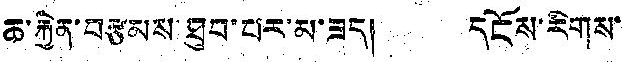ཆ་རྐྱེན་བརྩམས་ཐུབ་པར་མ་ཟད། དངོས་རིགས་
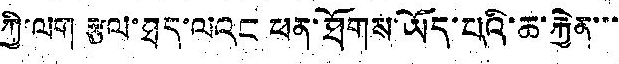ཀྱི་ལག རྩལ་ཐད་ལའང ཕན་ཐོགས་ཡོད་པའི་ཆ་རྐྱེན་་་
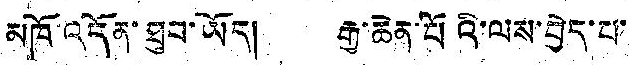མཁོ་འདོན་ཐུབ་ཡོད། རྒྱ་ཆེན་པོའི་ལས་བྱེད་པ་
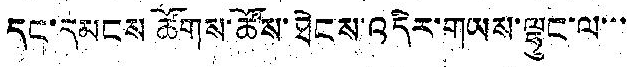དང་དམངས ཚོགས་ཚོས་ཐེངས་འདིར་གཡས་ལྷུང་ལ་་་
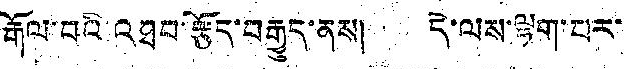རྒོལ་བའི འཐབ་རྩོད་བརྒྱུད་ནས། དེ་ལས་ལྷག་པར་
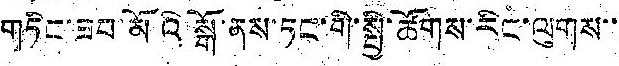གཏིང་ཟབ་མོའི སྒོ་ནས་ཏང་གི་སྤྱི་ཚོགས་རིང་ལུགས་་
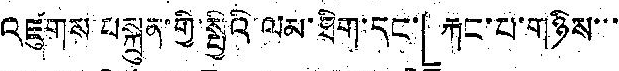འཛུགས བསྐྲུན་གྱི་སྤྱིའི་ལམ་ཐིག་དང་「རྐང་པ་གཉིས་་་
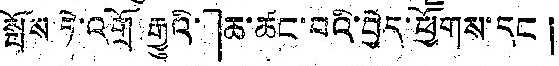སྤོས ཏེ་འགྲོ རྒྱུའི་」ཆ་ཚང་བའི་བྱེད་ཕྱགོས་དང །
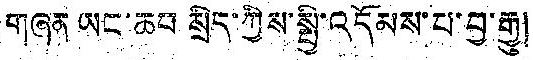གཞན ཡང་ཆབ སྲིད་ཀྱིས་སྤྱི་འདོམས་པ་བྱ་རྒྱུ།
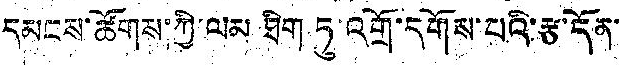དམངས་ཚོགས་ཀྱི་ལམ ཐིག ཏུ་འགྲོ་དགོས་པའི་རྩ་དོན་
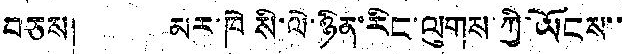བཅས། མར་ཁེ སི་ལེ་ཉིན་རིང་ལུགས་ཀྱི་ཡོངས་་
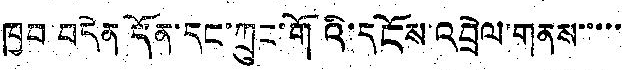ཁྱབ བདེན དང་ཀྲུང་གོའི་དངོས་འབྲེལ་གནས་་་་་
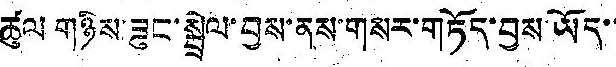ཚུལ གཉིས་ཟུང་སྦྲེལ་བྱས་ནས་གསར་གཏོད་བྱས་ཡོད་་
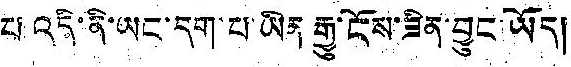པ འདི་ནི་ཡང་དག་པ་ཡིན རྒྱུ་ངོས་ཟིན་བྱུང་ཡོད།
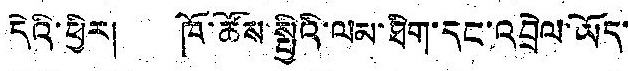དེའི་ཕྱིར། ཁོ་ཚོས་སྤྱིའི་ལམ་ཐིག་དང་འབྲེལ་ཡོད་
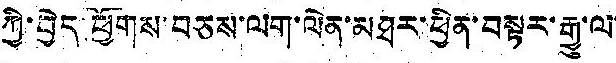ཀྱི་བྱེད ཕྱོགས་བཅས་ལག་ལེན་མཐར་ཕྱིན་བསྟར་རྒྱུ་ལ་
